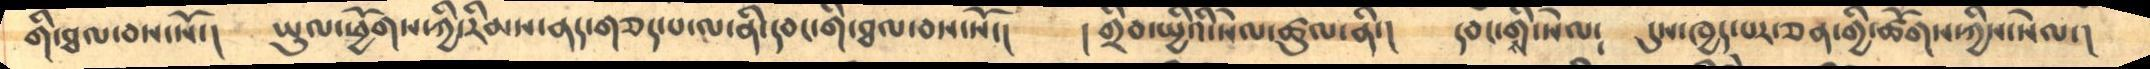གི་ཐལ་བས་སོ་།    ཡུལ་ཕྱོགས་ཀྱི་རིམས་ནད་གཅད་པ་ལ་ནི་དབང་གི་ཐལ་བས་སོ་།   །གྲིབ་སྤྱིའི་སེལ་ཚུལ་ནི་།   དབང་གིས་སེལ༴    དུས་ཁྱད་པར་ཅན་གྱི་ཚོགས་ཀྱིས་སེལ་།
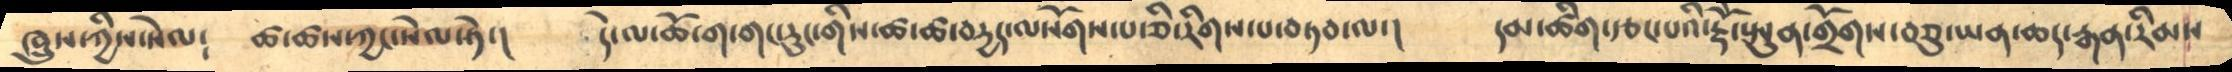ཁྲུས་ཀྱིས་སེལ༴    ཚ་ཚས་ཀྱང་སེལ་ཏེ་།    དེ་ལ་ཆོ་ག་གང་རུང་གིས་ཚ་ཚ་བདྱད་ལསོགས་པ་ཅི་རིགས་པ་བཏབ་ལ་།    དམ་ཚིག་རྩང་པའི་རྡོེ་སྤུན་གྲོགས་བཅུ་ཡན་ཆད་རྒན་རིམས
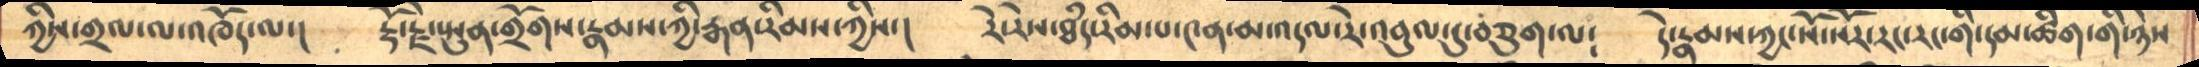ཀྱིས་གྲལ་ལ་འཁོད་ལ་།     རྡོ་རྗེ་སྤུན་གྲོགས་རྣམས་ཀྱི་རྒན་རིམས་ཀྱིས་།    རེ་རེས་ཐཾད་རིམ་པ་༤ན་མ་འདལ་རེ་འབུལ་དུ་བཅུག་ལ༴    དེ་རྣམས་ཀྱང་སོ་སོར་རང་རང་གི་དམ་ཚིག་གི་ཉེས
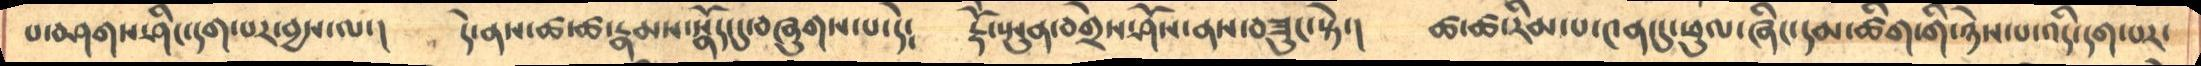པ་བཤགས་ཤིང་དག་པར་བྱས་ལ་།    དེ་ནས་ཚ་ཚ་རྣམས་སྣོད་དུ་བཞུགས་པ་དེ༴   རྡོེ་སྤུན་བགྲེས་ཤོས་ནས་བཟུང་སྟེ་།     ཚ་ཚ་རིམ་པ་༤ན་དུ་ཕུལ་ཞིང་དམ་ཚིག་གི་ཉེས་པ་འདི་དག་པར་
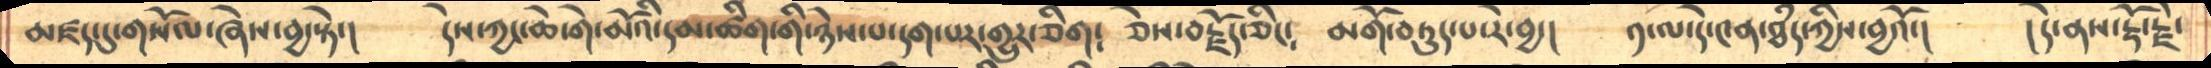མཛད་དུ་གསོལ་ཞེས་བྱ་སྟེ་།   དེས་ཀྱང་ཆེ་གེ་མོའི་དམ་ཚིག་གི་ཉེས་པ་དག་པར་གྱུར་ཅིག༴    ཅེས་བརྗོད་ཅིང༴   མགོ་བཏུད་པ་རེ་བྱ་།   ༡་ལ་དེ་༤ན་ཐཾད་ཀྱིས་བྱའོ་།   །དེ་ནས་རྡོ་རྗེ་
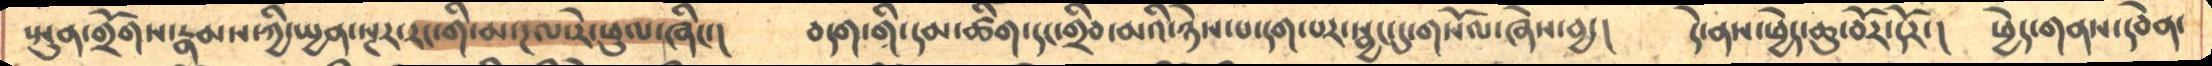སྤུན་གྲོགས་རྣམས་ཀྱི་སྤྱན་སྔར་རང་གི་མ་ཌལ་རེ་ཕུལ་ཞིང་།   བདག་གི་དམ་ཚིག་དང་གྲིབ་མའི་ཉེས་པ་དག་པར་སྦྱང་དུ་གསོལ་ཞེས་བྱ་།    དེ་ནས་ཕྱེད་ཆུ་བོར་དོར་།    ཕྱེད་གནས་དབེན་
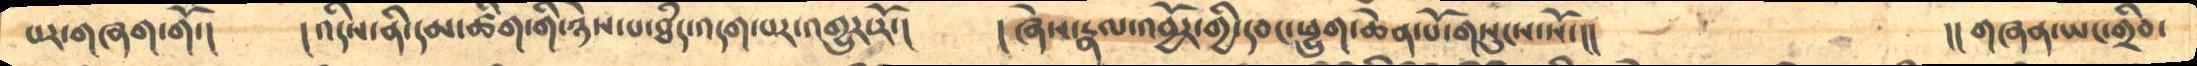པར་གཞག་གོ་།    །འདིས་ནི་དམ་ཚིག་གི་ཉེས་པ་ཐཾད་འདག་པར་འགྱུར་རོ་།    །ཞེས་རྣལ་འབྱོར་གྱི་དབང་ཕྱུག་ཆེན་པོ་གསུངས་སོ་།།           །།གཞན་ཡང་གྲིབ་
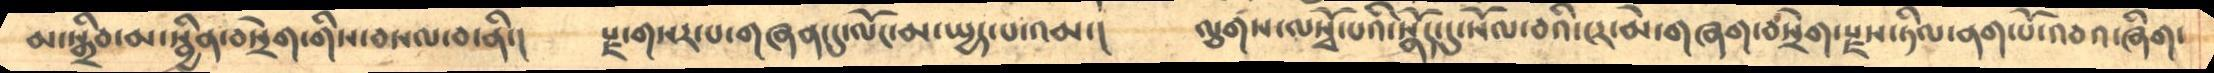མ་སྒྲིབ་མ་སྦྱིན་བསྲེག་གིས་བསལ་བ་ནི་།    རྫ་གསར་པ་གཞན་དུ་ལོང་མ་སྤྱད་པ་འམ་།   ལྕགས་ལསྭོ་པའི་སྣོད་དུ་སོལ་བའི་ངར་མེ་གཞག་བསྲེག་རྫས་ཏིལ་ནག་པོ་འབའ་ཞིག་
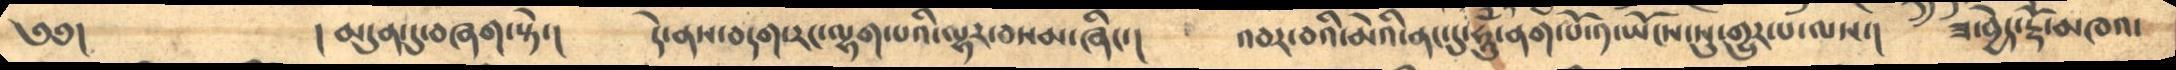༄༅།          ། མདུན་དུ་བཞག་སྟེ་།     དེ་ནས་བདག་རང་ལྷག་པའི་ལྷར་བསམ་ཞིང་།     འབར་བའི་མེའི་ནང་དུ་ཧཱུཾ་ནག་པོ་ཡོངས་སུ་གྱུར་པ་ལས་།    ཟ་བྱེད་རྡོེ་མཁའ་
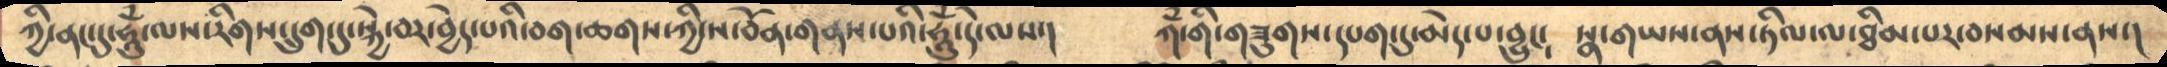ཀྱི་ནང་དུ་ཧཱུཾ་ལས་རིགས་དྲུག་དུ་སྐྱེ་བར་བྱེད་པའི་བག་ཆགས་ཀྱི་ས་བོན་གནས་པའི་ཧཱུཾ་དེ་ལས་།     ཀཾ་གི་གཟུགས་དཔག་དུ་མེད་པ་བྱུང༴  སྣ་གཡས་ནས་ཏིལ་ལ་ཐིམ་པར་བསམས་ནས་།
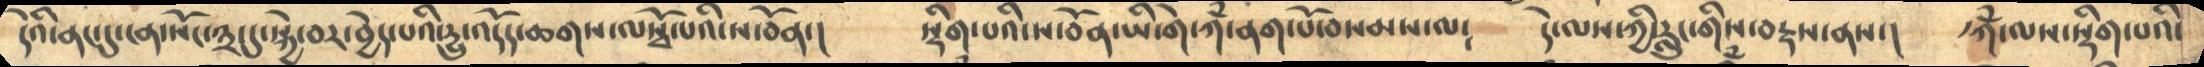དེའི་ནང་དུ་ངན་སོང་༣་དུ་སྐྱེ་བར་བྱེད་པའི་དྱུ་འདོད་ཆགས་ལསྭོ་པའི་ས་བོན་།    སྡིག་པའི་ས་བོན་ཡི་གེ་ཀཾ་ནག་པོ་བསམས་ལ༴    དེ་ལས་ཀྱི་རླུང་གིས་བརྟས་ནས་།     ཀཾ་ལས་སྡིག་པའི་
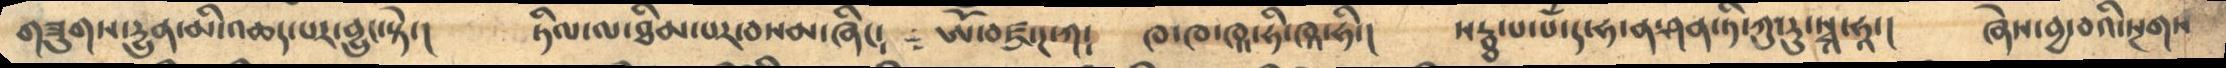གཟུགས་དྱུན་མི་འཆད་པར་བྱུང་སྟེ་།    ཏིལ་ལ་ཐིམ་པར་བསམ་ཞིང༴      ཨོཾ་བཛྲ་ཌ་ཀ༴    ཁ་ཁ་ཁཱ་ཧི་ཁཱ་ཧི་།    སརྦ་པ་པཾ་ད་ཧ་ན་ཤན་ཏི་ཀུ་རུ་སྭཱ་ཧཱ་།    ཞེས་བྱ་བའི་སྔགས
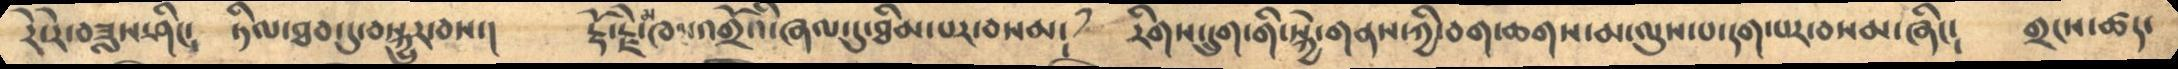རེ་རེ་བཟླས་ཤིང༴    ཏིལ་ཐབ་དུ་བསྐྱུར་བས་།    རྡོ་རྗེ་མཁ འགྲོའི་ཞལ་དུ་ཐིམ་པར་བསམ༴ ༡   རིགས་དྲུག་གི་སྐྱེ་གནས་ཀྱི་བག་ཆགས་མ་ལུས་པ་དག་པར་བསམ་ཞིང༴   གྲངས་ཚད་
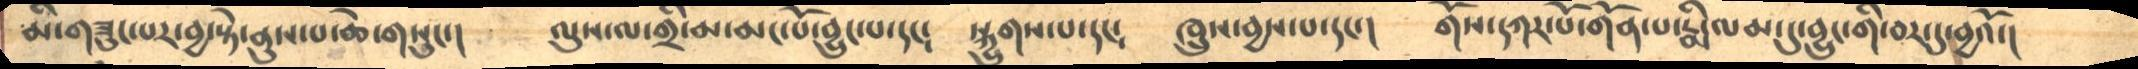མི་གཟུང་པར་བྱ་སྟེ་ནུས་པ་ཆེ་གསུང་།    ལུས་ལ་གྲི་མ་མང་པོ་བྱུང་པ་དང༴    སྐྱུགས་པ་དང༴    ཁྲུས་བྱས་པ་དང་།    གོས་དཀར་པོ་གོན་པ་རྨི་ལམ་དུ་བྱུང་གི་བར་དུ་བྱའོ་།
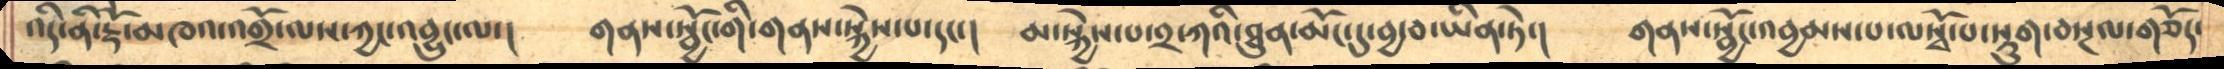འདི་ནི་རྡོེ་མཁའ་འགྲོ་ལས་ཀྱང་འབྱུང་ལ་།    གནས་སྦྱོང་གི་གནས་སྐྱེས་པ་དང་།    མ་སྐྱེས་པ་༢་ཀའི་ཐུན་མོང་དུ་བྱ་བ་ཡིན་ཏེ་།    གནས་སྦྱོང་འབྱམས་པ་ལསྭོ་པ་སྡུག་བསྔལ་གཅོད་
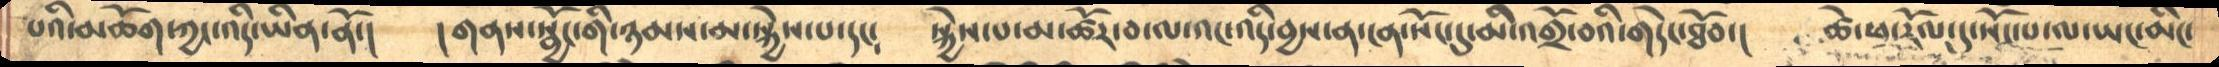པའི་མཆོག་ཀྱང་འདི་ཡིན་ནོ་།    །གནས་སྦྱོང་གི་ཉམས་མ་སྐྱེས་པ་དང༴     སྐྱེས་པ་མ་ཚོར་བ་ལ་འང་འདི་བྱས་ན་ངན་སོང་དུ་མི་འགྲོ་བའི་གདེང་ཐོབ་།   ཚེ་ཕ་རོལ་དུ་སོང་པ་ལ་ཡང་མིང་
